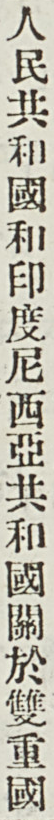人民共和國和印度尼西亞共和國關於雙重國
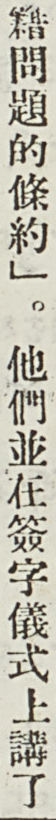籍問題的條約」。他們並在簽字儀式上講了
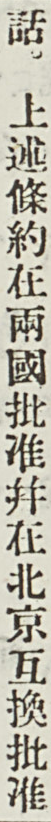話。上述條約在兩國批准並在北京互換批准
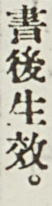書後生效。
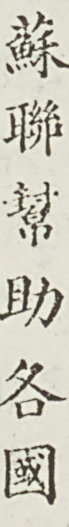蘇 聯 幫 助 各 國
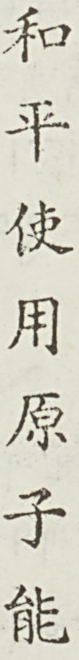和 平 使 用 原 子 能
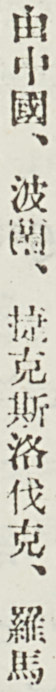由中國、波蘭、捷克斯洛伐克、羅馬
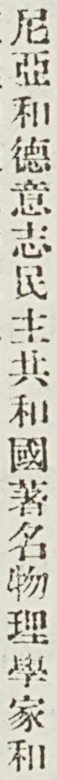尼亞和德意志民主共和國著名物理學家和
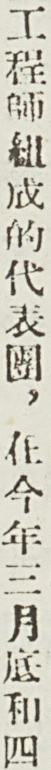工程師組成的代表團，在今年三月底和四
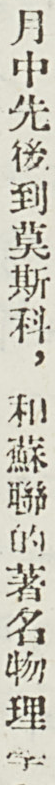月中先後到莫斯科，和蘇聯的著名物理學
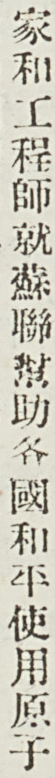家和工程師就蘇聯幫助各國和平使用原子
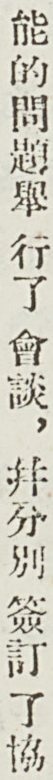能的問題舉 行了 會談，並分別簽訂了協
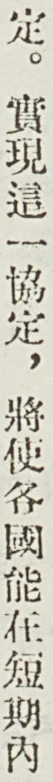定。實現這一協定，將使各國能在短期內
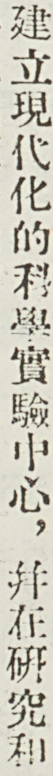建立現代化的科學實驗中心，並在研究和
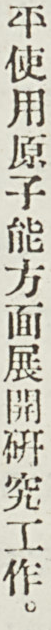平使用原子能方面展開研究工作。
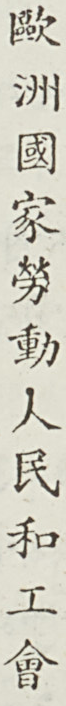歐 洲 國 家 勞 動 人 民 和 工 會
